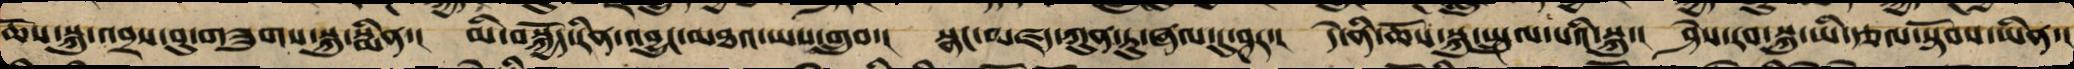ཆོས་སྐུ་འབྲས་བུ་གཟུགས་སྐུ་སྨིན་། མི་བསྐྱོད་རིན་འབྱུང་མཐའ་ཡས་གྲུབ་། སྣང་མཛད་ཀུན་ཏུ་ཞལ་དུ་ཤར་། དེ་ནི་ཆོས་སྐུ་སྤྲུལ་པའི་སྐུ་།  ཤེས་རབ་སྐུ་ཡི་རྩལ་སྟོབས་ཡིན་། །
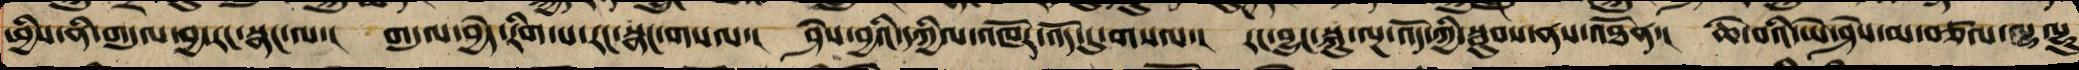ཕྱིས་ནི་གདུལ་བྱ་རང་སྣང་ལ་། འདུལ་བྱེད་རིག་པ་རང་སྣང་གསལ་། ཤེས་བྱའི་དཀྱིལ་འཁོར་འོད་དུ་གསལ། རང་བྱུང་སྐུ་ལྔ་འོད་ཀྱི་སྦུབས་ནས་འཐོན་། ཆེ་བའི་ཡེ་ཤེས་མ་བཙལ་ལྕ་ལྟུ་
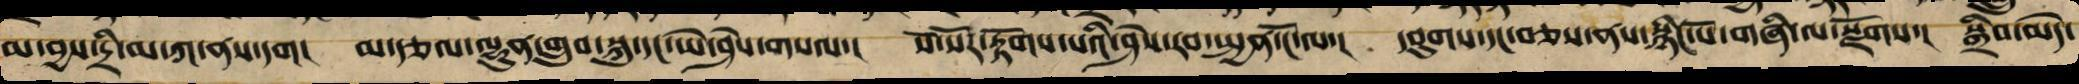མ་བྱས་དྲི་མ་ཀ་ནས་དག། མ་རྩལ་ལྷུན་གྲུབ་སྐུ་དང་ཡེ་ཤེས་གསལ་། སོ་སོར་རྟོག་པའི་ཤེས་རབ་སྤྱན་ངོ་ལ་། དབུགས་དང་བཅས་ནས་སྙིང་པོ་གཞི་ལ་སྫོགས་། སྒྲིབ་མེད་
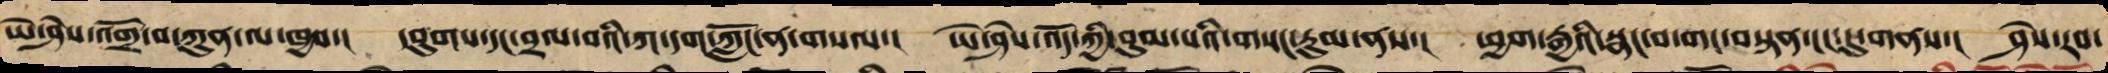ཡེ་ཤེས་འགྲོ་བ་ཀུན་ལ་ཁྱབ་། དབུགས་དང་བྲལ་བའི་ཀ་དག་ཀློང་ན་གསལ་། ཡེ་ཤེས་འོད་ཀྱི་བུམ་པའི་གསང་རུམ་ནས་། ཕྱག་རྒྱའི་སྣང་བ་གང་བསྟན་ངང་དུ་གནས་། ཤེས་རབ་
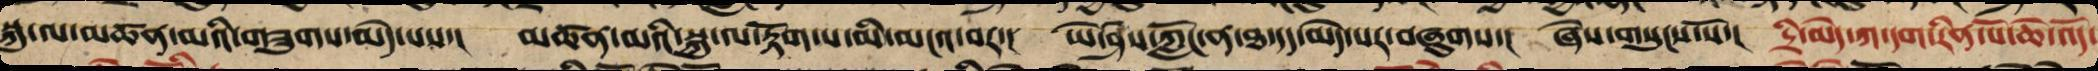སྐུ་ལ་མཚན་མའི་གཟུགས་མེད་པས་། མཚན་མའི་སྐུ་ལ་རྟོག་པ་མི་མངའ་བར་། ཡེ་ཤེས་ཀློང་ན་ཐ་དད་མེད་པར་བཞུགས་། ཞེས་གསུངས་སོ་།  དྲི་མེད་ཀ་དག་རིན་པོ་ཆེ་འོད་
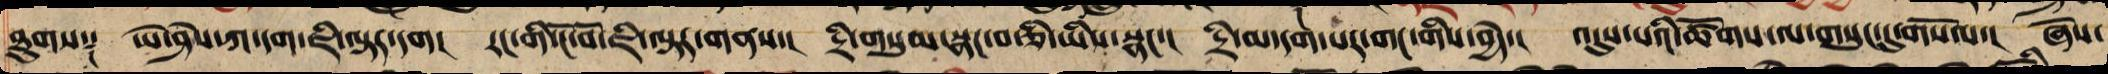ཐུགས༑ ཡེ་ཤེས་ཀ་དག་ཇི་ལྟར་དག། རང་གི་ངོ་བོ་ཇི་ལྟར་གནས་། དྲི་གསུམ་སྣང་བ་ཅི་ཡིས་སྣང་།  དྲི་མ་དག་པར་གང་གིས་བྱེད་། འདུས་པའི་ཚོགས་ལ་གསུང་དུ་གསོལ་། ཞེས་
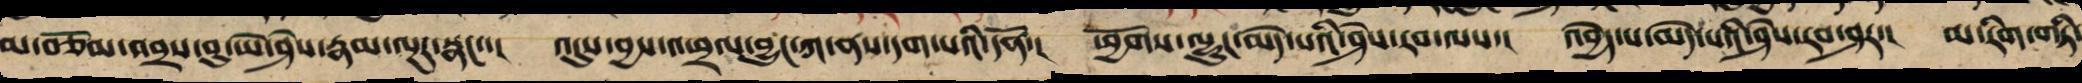མ་བཅོམ་འབྲས་བུ་ཡེ་ཤེས་རྣམ་ལྔར་སྣང་་།  འདུས་བྱས་འཕྲལ་བྱུང་ཀ་ནས་དག་པའི་དོན་།  ཕྱོགས་ལྷུང་མེད་པའི་ཤེས་རབ་ལས་། འབྱེད་པ་མེད་པའི་ཤེས་རབ་ཤར་། མ་རིག་གཏི་
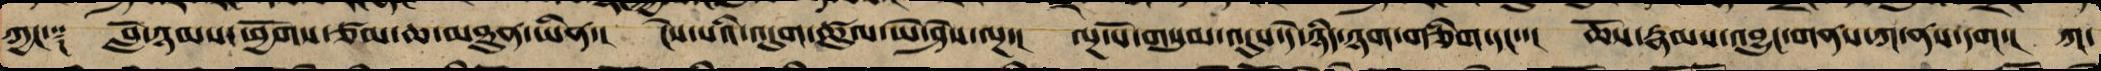ཀྱང་༑  བློ་ཉམས་ཕྱོགས་ཙམ་ཆ་མཐུན་ཡིན་།  ངེས་པའི་འདུག་ཚུལ་ཡེ་ཤེས་ལྔ་།  ལྔ་པོ་གསུམ་འདུས་དེ་ཉིད་ཉག་གཅིག་དང་་།  ཆོས་རྣམས་འབྱུང་གནས་ཀ་ནས་དག་།  ཀ་
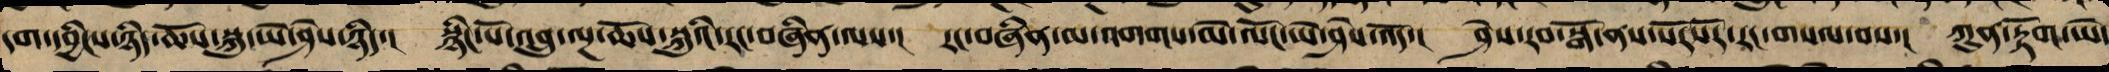དག་དབྱིངས་ཉིད་ཆོས་སྐུ་ཡེ་ཤེས་ཉིད་། སྙིང་པོ་འབྲུ་ལྔ་ཆོས་སྐུའི་རང་བཞིན་ལས་། རང་བཞིན་མ་འགགས་མེ་ལོང་ཡེ་ཤེས་འོད་།  ཤེས་རབ་སྒོ་ནས་སོ་སོར་རང་གསལ་བས་། ཀུན་རྟོག་ཡེ་
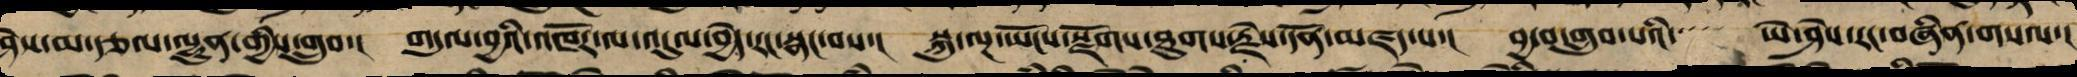ཤེས་མ་རྩལ་ལྷུན་གྱིས་གྲུབ་། གདུལ་བྱའི་འཁོར་ལ་འདུལ་བྱེད་རང་སྣང་བས་། སྐུ་ལྔ་ཡོངས་སྫོགས་ཐུགས་རྗེས་དོན་མཛད་པ་།  བྱ་བ་གྲུབ་པའི་་་་་ ཡེ་ཤེས་རང་བཞིན་གསལ་།
